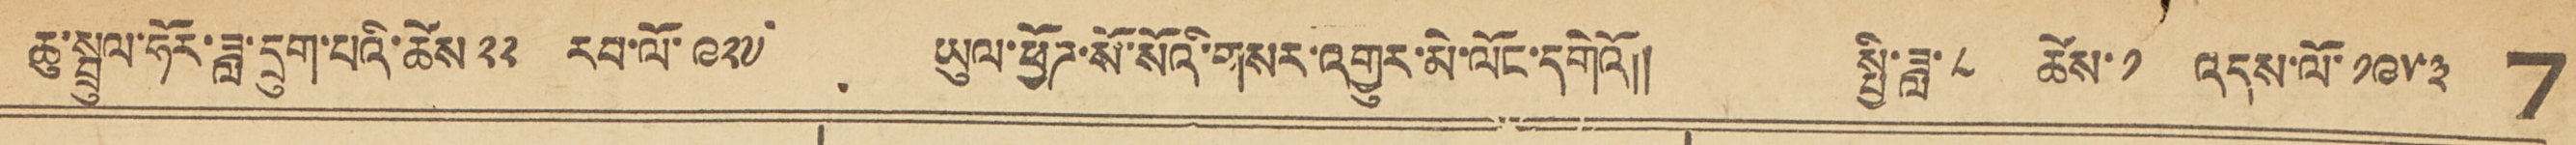ཆུ་སྤྲུལ་ཧོར་ཟླ་དྲུག་པའི་ཚེས་༢༢ རབ་ལོ་༩༢༦ ཡུལ་ཕྱོགས་སོ་སོའི་གསར་འགྱུར་མེ་ལོང་དགེའོ།། སྤྱི་ཟླ་ ༨ ཚེས་ ༡ འདས་ལོ་༡༩༥༣ 7
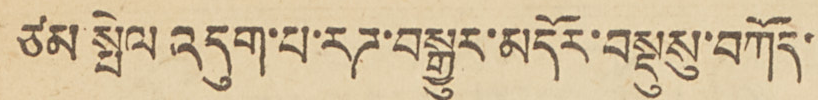ཙམ སྤེལ འདུག་པ་རཌ་བསྒྱུར་མདོར་བསྡུསུ་བཀོད་
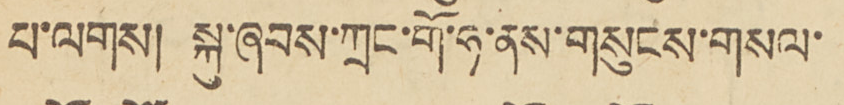པ་ལགས། སྐུ་ཞབས་ཀྲང་གོ་ཧ་ནས་གསུངས་གསལ་
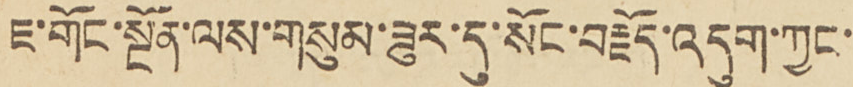ཇ་གོང་སྔོན་ལས་གསུམ་ཟུར་དུ་སོང་བརྗོད་འདུག་ཀྱང་
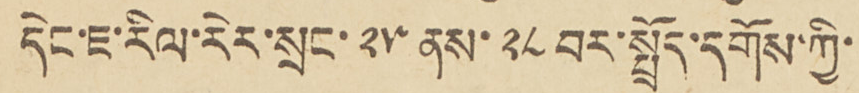དེང་ཇ་རིལ་རེར་སྲང་ ༢༥ ནས་ ༢༨ བར་སྤྲོད་དགོས་ཀྱི་
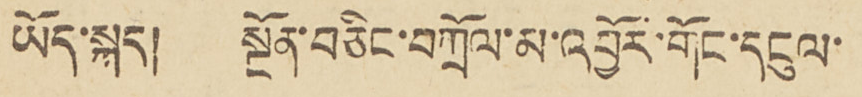ཡོད་སྐད། སྔོན་བཅིང་བཀྲོལ་མ་འབྱོར་གོང་དངུལ་
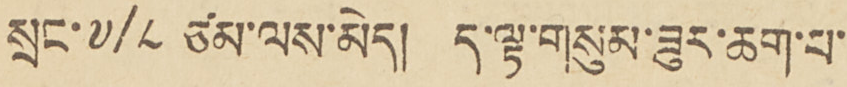སྲང་ ༧/༨ ཙམ་ལས་མེད། ད་ལྟ་གསུམ་ཟུར་ཆག་པ་
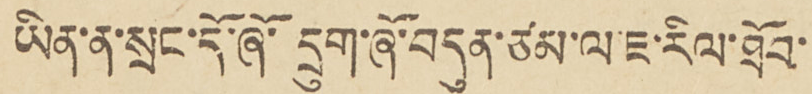ཡིན་ན་སྲང་དོ་ཞོ་དྲུག་ཞོ་བདུན་ཙམ་ལ་ཇ་རིལ་ཐོབ་
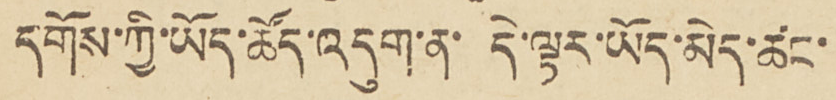དགོས་ཀྱི་ཡོད་ཚོད་འདུག་ན་དེ་ལྟར་ཡོད་མེད་ཚང་
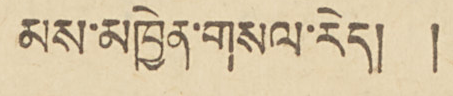མས་མཁྱེན་གསལ་རེད། །
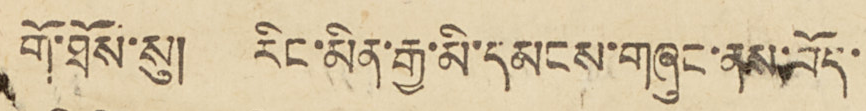གོ་ཐོས་སུ། རིང་མིན་རྒྱ་མི་དམངས་གཞུང་ནས་བོད་
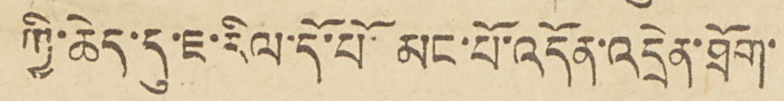ཀྱི་ཆེད་དུ་ཇ་རིལ་དོ་པོ་མང་པོ་འདོན་འདྲེན་ཐོག་
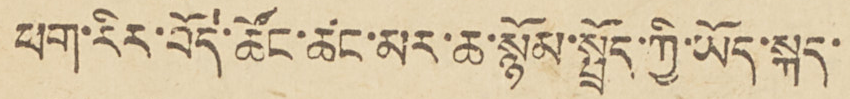ཕག་རིར་བོད་ཚོང་ཚང་མར་ཆ་སྙོམ་སྤྲོད་ཀྱི་ཡོད་སྐད་
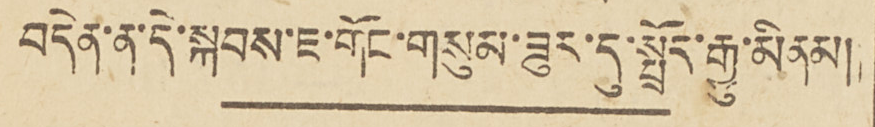བདེན་ན་དེ་སྐབས་ཇ་གོང་གསུམ་ཟུར་དུ་སྤྲོད་རྒྱུ་མིནམ།།
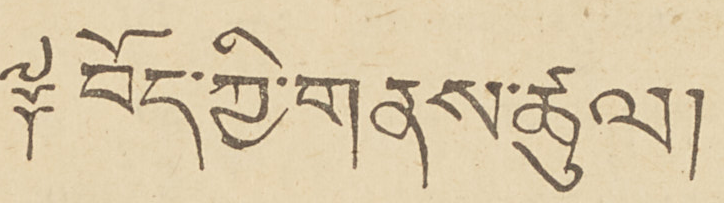༈ བོད་ཀྱི་གནས་ཚུལ།
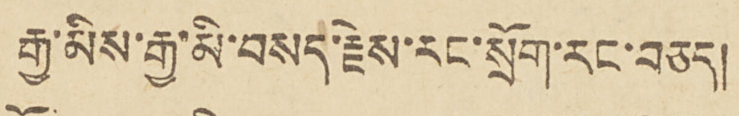རྒྱ་མིས་རྒྱ་མི་བསད་རྗེས་རང་སྲོག་རང་བཅད་
